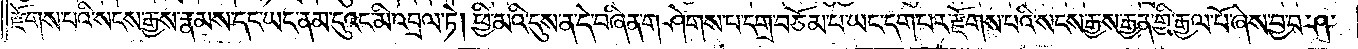རྫོགས་པའི་སངས་རྒྱས་རྣམས་དང་ཡང་ནམ་དུའང་མི་འབྲལ་ཏེ། ཕྱི་མའི་དུས་ན་དེ་བཞིན་གཤེགས་པ་དགྲ་བཅོམ་པ་ཡང་དག་པར་རྫོགས་པའི་སངས་རྒྱས་རྒྱན་གྱི་རྒྱལ་པོ་ཞེས་བྱ་བ་ཤ་
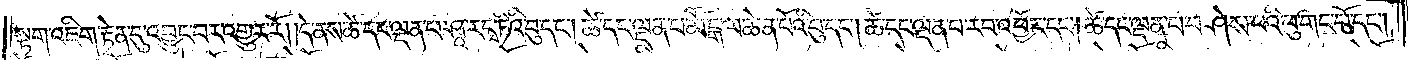སྟག་འཇིག་རྟེན་དུ་འབྱུང་བར་འགྱུར་རོ། །དེ་ནས་ཚེ་དང་ལྡན་པ་ཤཱ་ར་དྭ་ཏིའི་བུ་དང༌། ཚེ་དང་ལྡན་པ་མཽངྒ་ལ་ཆེན་པོའི་བུ་དང༌། ཚེ་དང་ལྡན་པ་རབ་འབྱོར་དང༌། ཚེ་དང་ལྡན་པ་བཤེས་པའི་བུ་གང་པོ་དང༌།
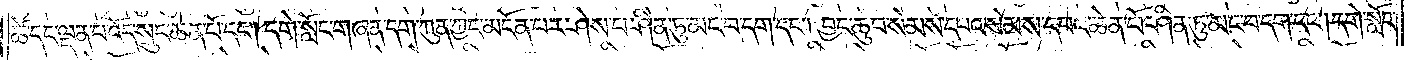ཚེ་དང་ལྡན་པ་འོད་སྲུང་ཆེན་པོ་དང༌། དགེ་སློང་གཞན་དག་ཀུན་ཀྱང་མངོན་པར་ཤེས་པ་ཤིན་ཏུ་མང་བ་དག་དང་༑ བྱང་ཆུབ་སེམས་དཔའ་སེམས་དཔའ་ཆེན་པོ་ཤིན་ཏུ་མང་བ་དག་དང༌། དགེ་སློང་
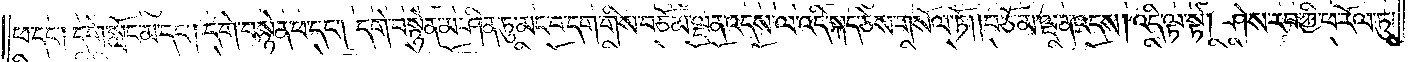ཕ་དང༌། དགེ་སློང་མ་དང༌། དགེ་བསྙེན་ཕ་དང༌། དགེ་བསྙེན་མ་ཤིན་ཏུ་མང་བདག་གིས་བཅོམ་ལྡན་འདས་ལ་འདི་སྐད་ཅེས་གསོལ་ཏོ། །བཅོམ་ལྡན་འདས། འདི་ལྟ་སྟེ། ཤེས་རབ་ཀྱི་ཕ་རོལ་ཏུ་
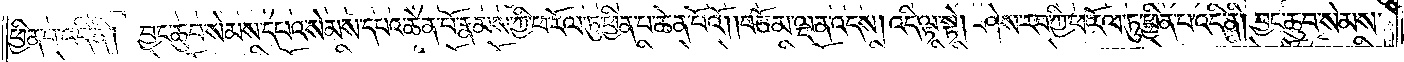ཕྱིན་པ་འདི་ནི། བྱང་ཆུབ་སེམས་དཔའ་སེམས་དཔའ་ཆེན་པོ་རྣམས་ཀྱི་ཕ་རོལ་ཏུ་ཕྱིན་པ་ཆེན་པོའོ། །བཅོམ་ལྡན་འདས། འདི་ལྟ་སྟེ། ཤེས་རབ་ཀྱི་ཕ་རོལ་ཏུ་ཕྱིན་པ་འདི་ནི། བྱང་ཆུབ་སེམས་
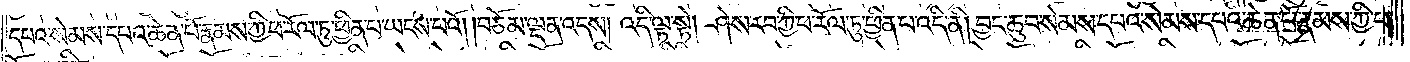དཔའ་སེམས་དཔའ་ཆེན་པོ་རྣམས་ཀྱི་ཕ་རོལ་ཏུ་ཕྱིན་པ་ཡངས་པའོ། །བཅོམ་ལྡན་འདས། འདི་ལྟ་སྟེ། ཤེས་རབ་ཀྱི་ཕ་རོལ་ཏུ་ཕྱིན་པ་འདི་ནི། བྱང་ཆུབ་སེམས་དཔའ་སེམས་དཔའ་ཆེན་པོ་རྣམས་ཀྱི་ཕ་
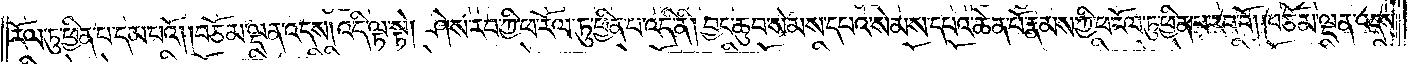རོལ་ཏུ་ཕྱིན་པ་དམ་པའོ། །བཅོམ་ལྡན་འདས། འདི་ལྟ་སྟེ། ཤེས་རབ་ཀྱི་ཕ་རོལ་ཏུ་ཕྱིན་པ་འདི་ནི། བྱང་ཆུབ་སེམས་དཔའ་སེམས་དཔའ་ཆེན་པོ་རྣམས་ཀྱི་ཕ་རོལ་ཏུ་ཕྱིན་པ་རབ་བོ། །བཅོམ་ལྡན་འདས༎
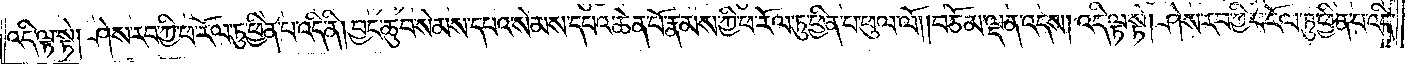འདི་ལྟ་སྟེ། ཤེས་རབ་ཀྱི་ཕ་རོལ་ཏུ་ཕྱིན་པ་འདི་ནི། བྱང་ཆུབ་སེམས་དཔའ་སེམས་དཔའ་ཆེན་པོ་རྣམས་ཀྱི་ཕ་རོལ་ཏུ་ཕྱིན་པ་ཕུལ་ལོ། །བཅོམ་ལྡན་འདས། འདི་ལྟ་སྟེ། ཤེས་རབ་ཀྱི་ཕ་རོལ་ཏུ་ཕྱིན་པ་འདི་
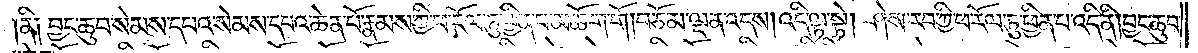ནི༑ བྱང་ཆུབ་སེམས་དཔའ་སེམས་དཔའ་ཆེན་པོ་རྣམས་ཀྱི་ཕ་རོལ་ཏུ་ཕྱིན་པ་མཆོག་གོ །བཅོམ་ལྡན་འདས། འདི་ལྟ་སྟེ། ཤེས་རབ་ཀྱི་ཕ་རོལ་ཏུ་ཕྱིན་པ་འདི་ནི། བྱང་ཆུབ་
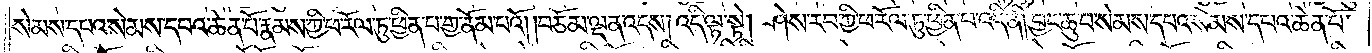སེམས་དཔའ་སེམས་དཔའ་ཆེན་པོ་རྣམས་ཀྱི་ཕ་རོལ་ཏུ་ཕྱིན་པ་གྱ་ནོམ་པའོ། །བཅོམ་ལྡན་འདས། འདི་ལྟ་སྟེ། ཤེས་རབ་ཀྱི་ཕ་རོལ་ཏུ་ཕྱིན་པ་འདི་ནི། བྱང་ཆུབ་སེམས་དཔའ་སེམས་དཔའ་ཆེན་པོ་
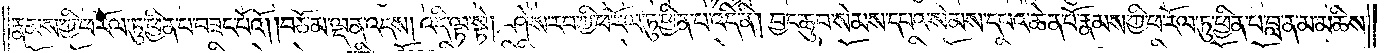རྣམས་ཀྱི་ཕ་རོལ་ཏུ་ཕྱིན་པ་བཟང་པོའོ། །བཅོམ་ལྡན་འདས། འདི་ལྟ་སྟེ། ཤེས་རབ་ཀྱི་ཕ་རོལ་ཏུ་ཕྱིན་པ་འདི་ནི། བྱང་ཆུབ་སེམས་དཔའ་སེམས་དཔའ་ཆེན་པོ་རྣམས་ཀྱི་ཕ་རོལ་ཏུ་ཕྱིན་པ་བླ་ན་མ་མཆིས་
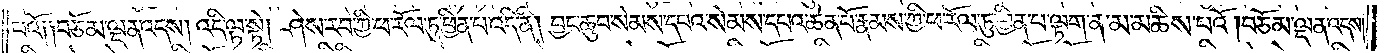པའོ༑ ༑བཅོམ་ལྡན་འདས། འདི་ལྟ་སྟེ། ཤེས་རབ་ཀྱི་ཕ་རོལ་ཏུ་ཕྱིན་པ་འདི་ནི། བྱང་ཆུབ་སེམས་དཔའ་སེམས་དཔའ་ཆེན་པོ་རྣམས་ཀྱི་ཕ་རོལ་ཏུ་ཕྱིན་པ་ལྟག་ན་མ་མཆིས་པའོ་།བཅོམ་ལྡན་འདས།
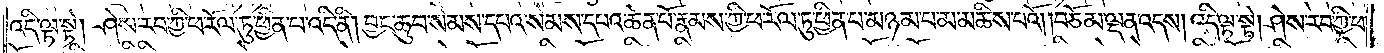འདི་ལྟ་སྟེ། ཤེས་རབ་ཀྱི་ཕ་རོལ་ཏུ་ཕྱིན་པ་འདི་ནི། བྱང་ཆུབ་སེམས་དཔའ་སེམས་དཔའ་ཆེན་པོ་རྣམས་ཀྱི་ཕ་རོལ་ཏུ་ཕྱིན་པ་མཉམ་པ་མ་མཆིས་པའོ། །བཅོམ་ལྡན་འདས། འདི་ལྟ་སྟེ། ཤེས་རབ་ཀྱི་ཕ་
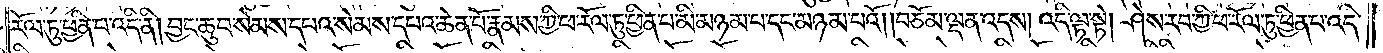རོལ་ཏུ་ཕྱིན་པ་འདི་ནི། བྱང་ཆུབ་སེམས་དཔའ་སེམས་དཔའ་ཆེན་པོ་རྣམས་ཀྱི་ཕ་རོལ་ཏུ་ཕྱིན་པ་མི་མཉམ་པ་དང་མཉམ་པའོ། །བཅོམ་ལྡན་འདས། འདི་ལྟ་སྟེ། ཤེས་རབ་ཀྱི་ཕ་རོལ་ཏུ་ཕྱིན་པ་འདི་
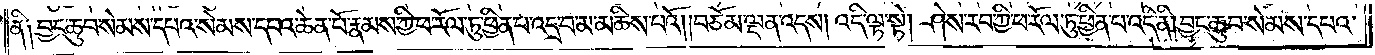ནི༑ བྱང་ཆུབ་སེམས་དཔའ་སེམས་དཔའ་ཆེན་པོ་རྣམས་ཀྱི་ཕ་རོལ་ཏུ་ཕྱིན་པ་འདྲ་བ་མ་མཆིས་པའོ། །བཅོམ་ལྡན་འདས། འདི་ལྟ་སྟེ། ཤེས་རབ་ཀྱི་ཕ་རོལ་ཏུ་ཕྱིན་པ་འདི་ནི། བྱང་ཆུབ་སེམས་དཔའ་
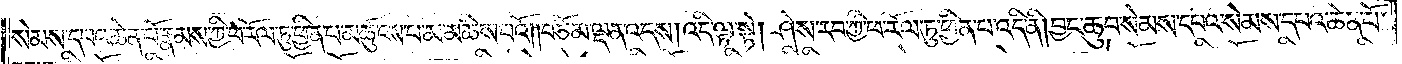སེམས་དཔའ་ཆེན་པོ་རྣམས་ཀྱི་ཕ་རོལ་ཏུ་ཕྱིན་པ་མཚུངས་པ་མ་མཆིས་པའོ། །བཅོམ་ལྡན་འདས། འདི་ལྟ་སྟེ། ཤེས་རབ་ཀྱི་ཕ་རོལ་ཏུ་ཕྱིན་པ་འདི་ནི། བྱང་ཆུབ་སེམས་དཔའ་སེམས་དཔའ་ཆེན་པོ་
